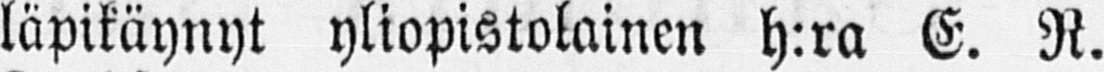läpikäynyt yliopistolainen h:ra E. R.
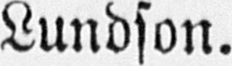Lundson.
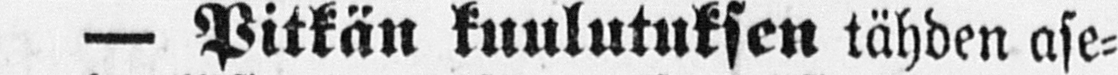— Pitkän kuulutuksen lähden ase-
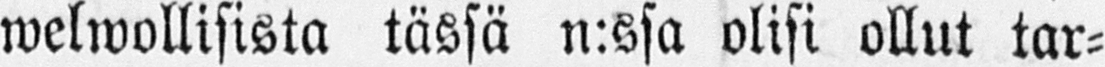welwollisista tässä n:ssa olisi ollut tar-
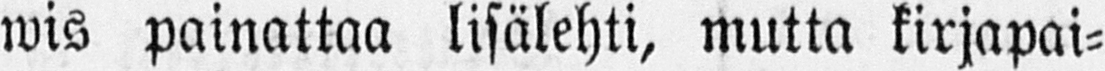wis painattaa lisälehti, mutta kirjapai-
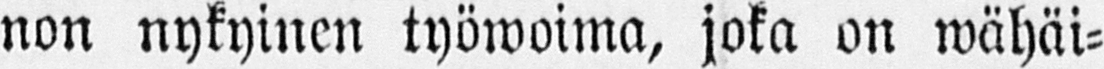non nykyinen työwoima, joka on wähäi-
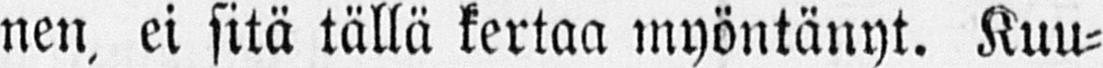nen, ei sitä tällä kertaa myöntänyt. Kuu-
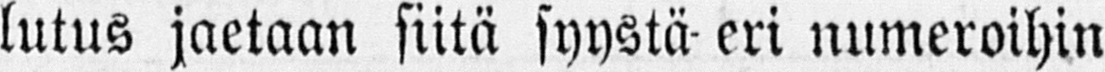lutus jaetaan siitä syystä eri numeroihin
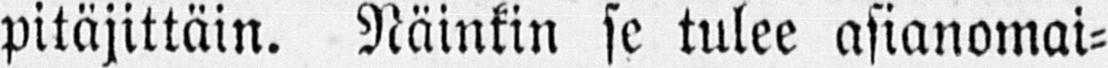pitäjittäin. Näinkin se tulee asianomai-
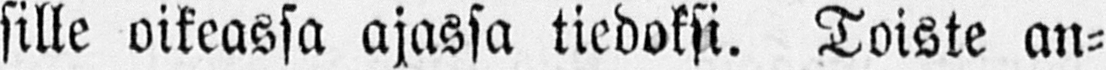sille oikeassa ajassa tiedoksi. Toiste an-
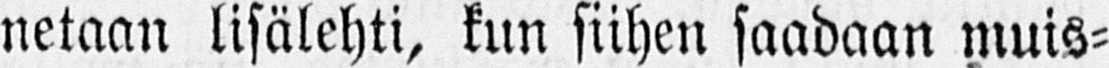netaan lisälehti, kun siihen saadaan muis-
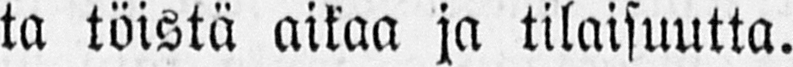ta töistä aitaa ja tilaisuutta.
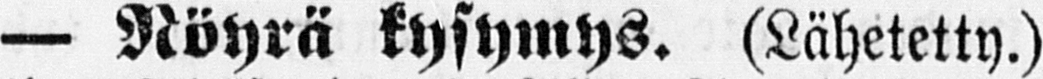— Nöyrä kysymys. (Lähetetty.)
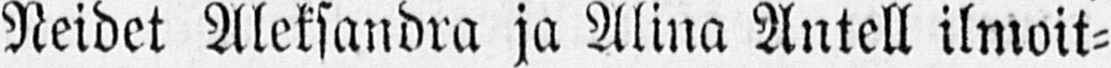Neidet Aleksandra ja Alina Antell ilmoit-
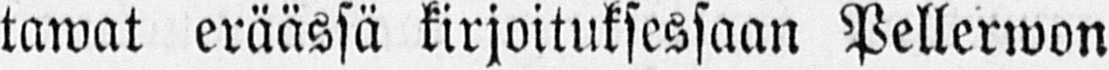tawat eräässä kirjoituksessaan Pellerwon
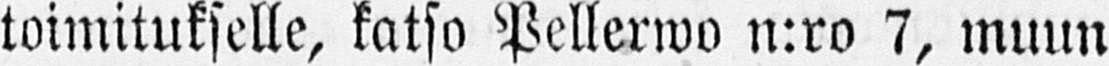toimitukselle, katso Pellerwo n:ro 7, muun
